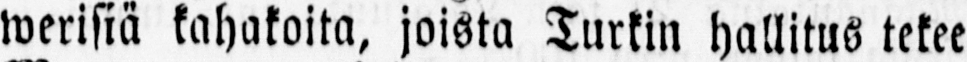werisiä kahakoita, joista Turkin hallitus tekee
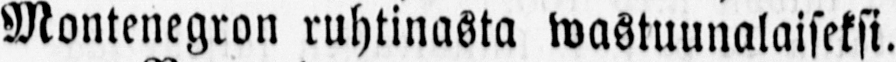Montenegron ruhtinasta wastuunalaiseksi.
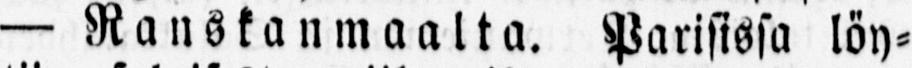— Ranskanmaalta. Parisissa löy-
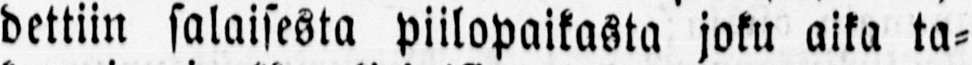dettiin salaisesta piilopaikasta joku aika ta-
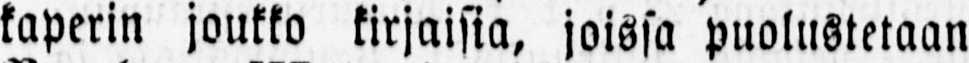kaperin joukko kirjaisia, joissa puolustetaan
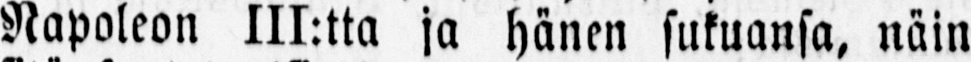Napoleon III:tta ja hänen sukuansa, näin
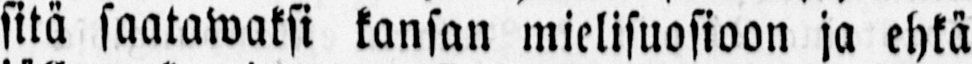sitä saatawaksi kansan mielisuosioon ja ehkä
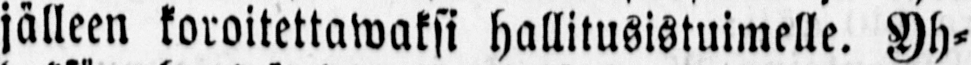jälleen koroitettawaksi hallitusistuimelle. Yh-
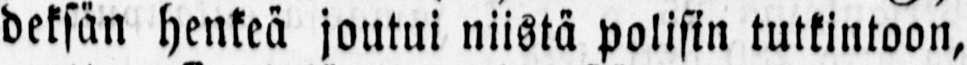deksän henkeä joutui niistä polisin tutkintoon,
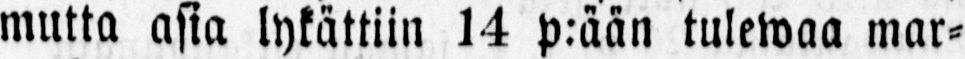mutta asia lykättiin 14 p:ään tulewaa mar-
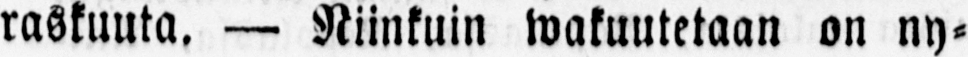raskuuta. — Niinkuin wakuutetaan on ny-
